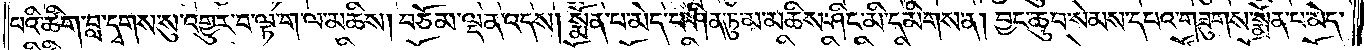པའི་ཚིག་བླ་དྭགས་སུ་འགྱུར་བ་ལྟ་ག་ལ་མཆིས། བཅོམ་ལྡན་འདས། སྨོན་པ་མེད་པ་ཤིན་ཏུ་མ་མཆིས་ཤིང་མི་དམིགས་ན། བྱང་ཆུབ་སེམས་དཔའ་གཟུགས་སྨོན་པ་མེད་
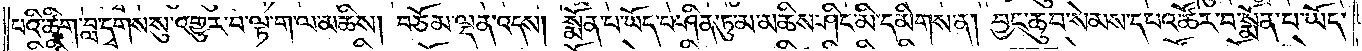པའི་ཚིག་བླ་དྭགས་སུ་འགྱུར་བ་ལྟ་ག་ལ་མཆིས། བཅོམ་ལྡན་འདས། སྨོན་པ་ཡོད་པ་ཤིན་ཏུ་མ་མཆིས་ཤིང་མི་དམིགས་ན། བྱང་ཆུབ་སེམས་དཔའ་ཚོར་བ་སྨོན་པ་ཡོད་
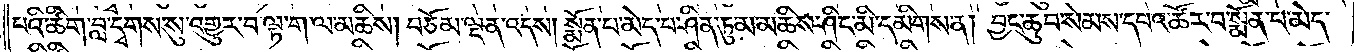པའི་ཚིག་བླ་དྭགས་སུ་འགྱུར་བ་ལྟ་ག་ལ་མཆིས། བཅོམ་ལྡན་འདས། སྨོན་པ་མེད་པ་ཤིན་ཏུ་མ་མཆིས་ཤིང་མི་དམིགས་ན། བྱང་ཆུབ་སེམས་དཔའ་ཚོར་བ་སྨོན་པ་མེད་
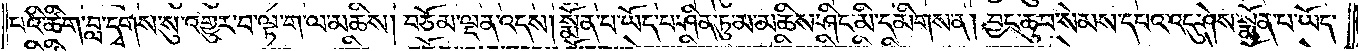པའི་ཚིག་བླ་དྭགས་སུ་འགྱུར་བ་ལྟ་ག་ལ་མཆིས། བཅོམ་ལྡན་འདས། སྨོན་པ་ཡོད་པ་ཤིན་ཏུ་མ་མཆིས་ཤིང་མི་དམིགས་ན། བྱང་ཆུབ་སེམས་དཔའ་འདུ་ཤེས་སྨོན་པ་ཡོད་
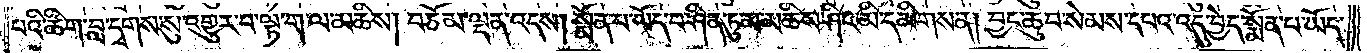པའི་ཚིག་བླ་དྭགས་སུ་འགྱུར་བ་ལྟ་ག་ལ་མཆིས། བཅོམ་ལྡན་འདས། སྨོན་པ་ཡོད་པ་ཤིན་ཏུ་མ་མཆིས་ཤིང་མི་དམིགས་ན། བྱང་ཆུབ་སེམས་དཔའ་འདུ་བྱེད་སྨོན་པ་ཡོད་
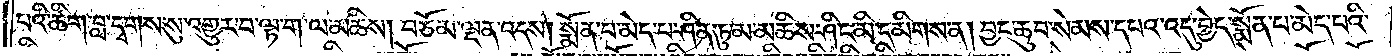པའི་ཚིག་བླ་དྭགས་སུ་འགྱུར་བ་ལྟ་ག་ལ་མཆིས། བཅོམ་ལྡན་འདས། སྨོན་པ་མེད་པ་ཤིན་ཏུ་མ་མཆིས་ཤིང་མི་དམིགས་ན། བྱང་ཆུབ་སེམས་དཔའ་འདུ་བྱེད་སྨོན་པ་མེད་པའི་
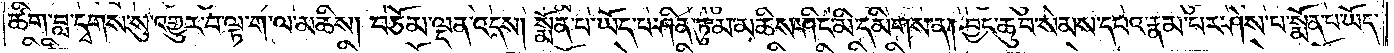ཚིག་བླ་དྭགས་སུ་འགྱུར་བ་ལྟ་ག་ལ་མཆིས། བཅོམ་ལྡན་འདས། སྨོན་པ་ཡོད་པ་ཤིན་ཏུ་མ་མཆིས་ཤིང་མི་དམིགས་ན། བྱང་ཆུབ་སེམས་དཔའ་རྣམ་པར་ཤེས་པ་སྨོན་པ་ཡོད་
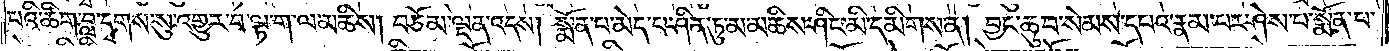པའི་ཚིག་བླ་དྭགས་སུ་འགྱུར་བ་ལྟ་ག་ལ་མཆིས། བཅོམ་ལྡན་འདས། སྨོན་པ་མེད་པ་ཤིན་ཏུ་མ་མཆིས་ཤིང་མི་དམིགས་ན། བྱང་ཆུབ་སེམས་དཔའ་རྣམ་པར་ཤེས་པ་སྨོན་པ་
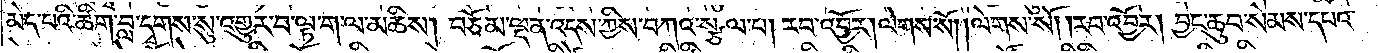མེད་པའི་ཚིག་བླ་དྭགས་སུ་འགྱུར་བ་ལྟ་ག་ལ་མཆིས། བཅོམ་ལྡན་འདས་ཀྱིས་བཀའ་སྩལ་པ། རབ་འབྱོར། ལེགས་སོ། ལེགས་སོ། །རབ་འབྱོར། བྱང་ཆུབ་སེམས་དཔའ་
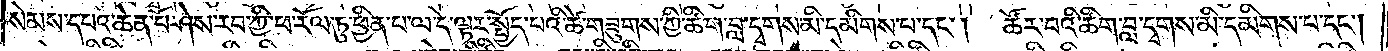སེམས་དཔའ་ཆེན་པོ་ཤེས་རབ་ཀྱི་ཕ་རོལ་ཏུ་ཕྱིན་པ་ལ་དེ་ལྟར་སྤྱོད་པའི་ཚེ་གཟུགས་ཀྱི་ཚིག་བླ་དྭགས་མི་དམིགས་པ་དང༌། ཚོར་བའི་ཚིག་བླ་དྭགས་མི་དམིགས་པ་དང༌།
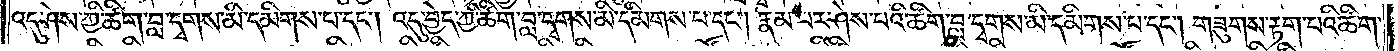འདུ་ཤེས་ཀྱི་ཚིག་བླ་དྭགས་མི་དམིགས་པ་དང༌། འདུ་བྱེད་ཀྱི་ཚིག་བླ་དྭགས་མི་དམིགས་པ་དང༌། རྣམ་པར་ཤེས་པའི་ཚིག་བླ་དྭགས་མི་དམིགས་པ་དང༌། གཟུགས་རྟག་པའི་ཚིག་
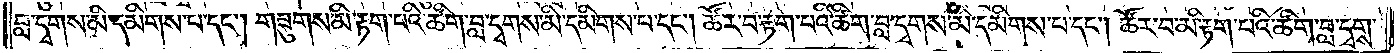བླ་དྭགས་མི་དམིགས་པ་དང༌། གཟུགས་མི་རྟག་པའི་ཚིག་བླ་དྭགས་མི་དམིགས་པ་དང༌། ཚོར་བ་རྟག་པའི་ཚིག་བླ་དྭགས་མི་དམིགས་པ་དང༌། ཚོར་བ་མི་རྟག་པའི་ཚིག་བླ་དྭགས་
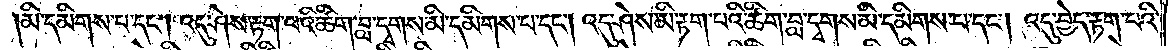མི་དམིགས་པ་དང༌། འདུ་ཤེས་རྟག་པའི་ཚིག་བླ་དྭགས་མི་དམིགས་པ་དང༌། འདུ་ཤེས་མི་རྟག་པའི་ཚིག་བླ་དྭགས་མི་དམིགས་པ་དང༌། འདུ་བྱེད་རྟག་པའི་
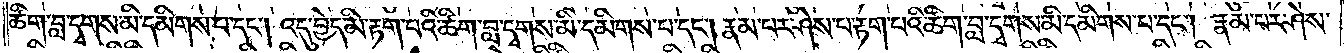ཚིག་བླ་དྭགས་མི་དམིགས་པ་དང༌། འདུ་བྱེད་མི་རྟག་པའི་ཚིག་བླ་དྭགས་མི་དམིགས་པ་དང༌། རྣམ་པར་ཤེས་པ་རྟག་པའི་ཚིག་བླ་དྭགས་མི་དམིགས་པ་དང༌། རྣམ་པར་ཤེས་
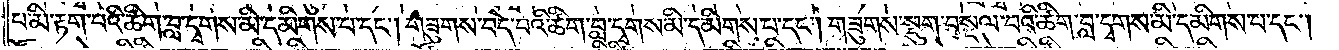པ་མི་རྟག་པའི་ཚིག་བླ་དྭགས་མི་དམིགས་པ་དང༌། གཟུགས་བདེ་བའི་ཚིག་བླ་དྭགས་མི་དམིགས་པ་དང༌། གཟུགས་སྡུག་བསྔལ་བའི་ཚིག་བླ་དྭགས་མི་དམིགས་པ་དང༌།
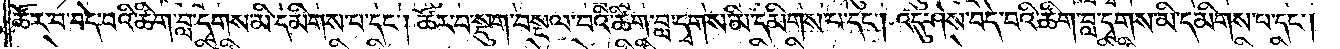ཚོར་བ་བདེ་བའི་ཚིག་བླ་དྭགས་མི་དམིགས་པ་དང༌། ཚོར་བ་སྡུག་བསྔལ་བའི་ཚིག་བླ་དྭགས་མི་དམིགས་པ་དང༌། འདུ་ཤེས་བདེ་བའི་ཚིག་བླ་དྭགས་མི་དམིགས་པ་དང༌།
